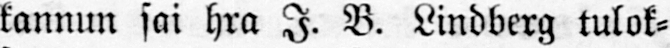kannun sai hra I. B. Lindberg tulok-
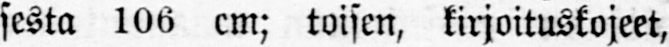sesta 106 cm; toisen, kirjoituskojeet,
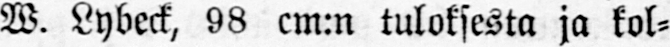W. Lybeck, 98 cm:n tuloksesta ja kol-
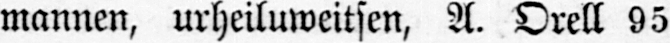mannen, urheiluweitsen, A. Orell 95
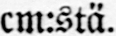cm:stä.
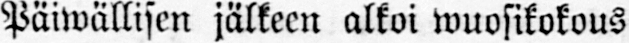Päiwällisen jälkeen alkoi wuosikokous
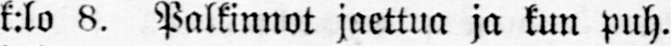k:lo 8. Palkinnot jaettua ja kun puh.
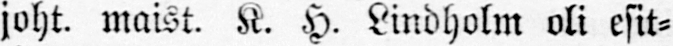joht. maist. K. H. Lindholin oli esit-
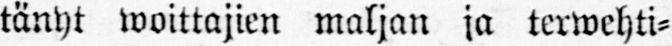tänyt woittajien maljan ja terwehti-
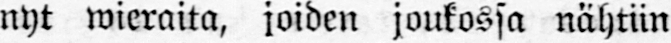nyt wieraita, joiden joukossa nähtiin
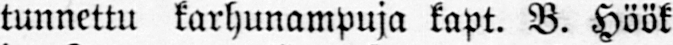tunnettu karhunampuja kapt. B. Höök
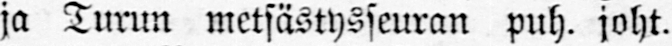ja Turun metsästysseuran puh. joht.
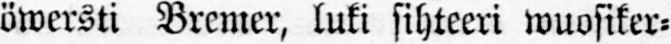öwersti Bremer, luki sihteeri wuosiker-
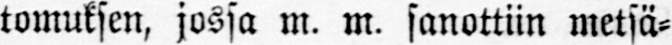tomuksen, jossa m. m. sanottiin metsä-
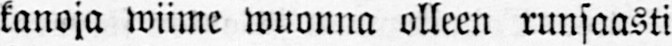kanoja wiime wuonaa olleen runsaasti
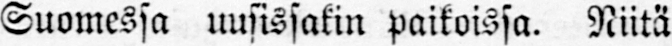Suomessa uusissakin paikoissa. Niitä
